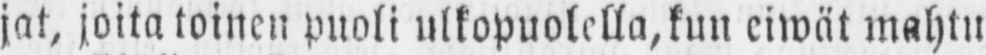jat, joita toinen puoli ulkopuolella, kun eiwät mahtu-
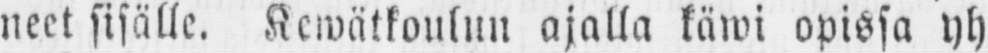neet sisälle. Kewätkoulun ajalla käwi opissa yh-
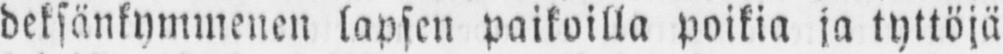deksänkymmenen lapsen paikoilla poikia ja tyttöjä
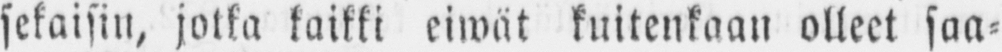sekaisin, jotka kaikki eiwät kuitenkaan olleet saa-
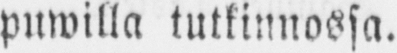puwilla tutkinnossa.
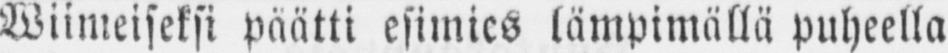Wiimeiseksi päätti esimies lämpimällä puheella
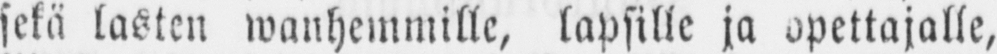setä lasten wanhemmille, lapsille ja opettajalle,
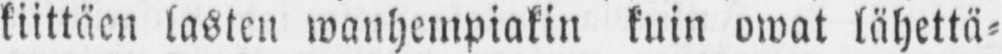kiittäen lasten wanhempiakin kuin owat lähettä-
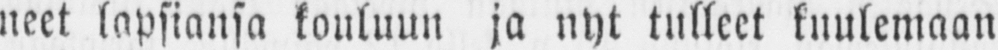neet lapsiansa kouluun ja nyt tulleet kuulemaan
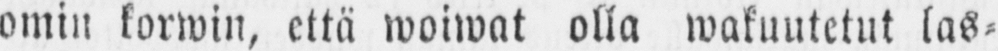omin korwin, että woiwat olla wakuutetut las-
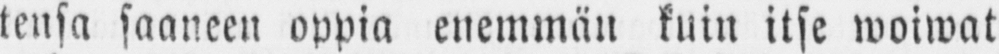tensa saaneen oppia enemmän kuin itse woiwat
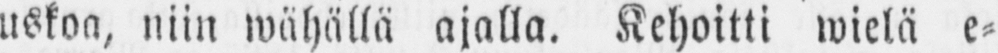uskoa, niin wähällä ajalla. Kehoitti wielä e-
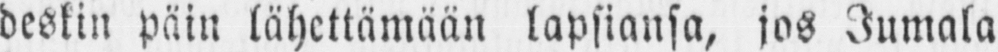deskin päin lähettämään lapsiansa, jos Jumala
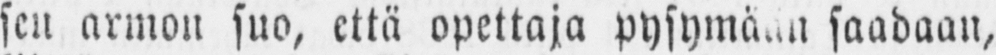sen armon suo, että opettaja pysymään saadaan,
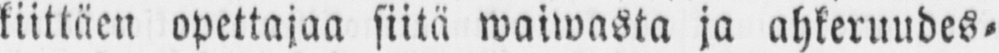kiittäen opettajaa siitä waiwasta ja ahkeruudes-
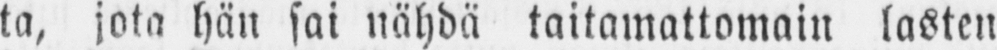ta, jota hän sai nähdä taitamattomain lasten
